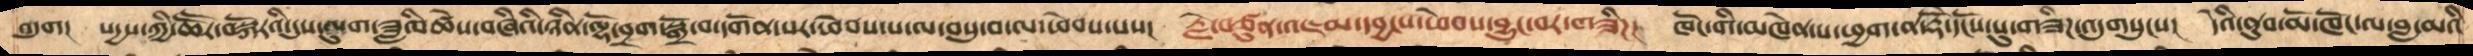འདུག། སདྱས་ཀྱི་ཆཽར་བསྐོརའི་དུས་ལུག་ཟླའི་ཚེས་བཞིའི་ཉིན་ལྷོ་བྲག་སྒྲོ་བ་དགོན་པར་ཕེབས་པ་ལ་བསུ་བ་ལ་ཕེབས་པས།  རྗེ་བཙུན་འཇམ་དབྱངས་ཕེབས་བྱུང་བར་གཟིཌ།  ཁོང་གི་མཁེན་པ་ཕྱག་ན་རྡོ་ེདངོས་སུ་གཟིཌ་འདུག་གསུངས།   དེའི་ནུབ་མོ་ཁོང་ལ་བླ་མའི་
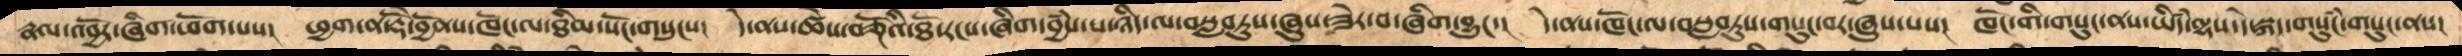རྣལ་འབྱོར་ཞིག་ཕོག་པས།  ཕྱག་ན་རྡོ་ེབྱོནས་ཁོང་ལ་ཐིམ་སོང་གསུངས།  དེ་ནས་ཚེས་བཅྔོའི་ཐོ་རངས་ཞིག་བྱཾས་པ་ཉིད་ལ་བསླབཏུས་ཞུས་ཟེར་བ་ཞིག་བྱུང་།  དེ་ནས་ཁོང་ལ་བསླབཏུས་གསུང་བར་ཞུས་པས།  ཁོང་གི་གསུང་ནས་ཡིདཾ་ལྷས་དེ་སྐད་གསུངཾ་གསུང་ནས།
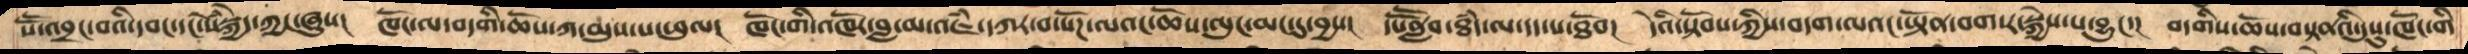སཽ་འབྲང་བའི་དབང་དང་སེཾསྐྱེད་ཀྱང་ཞུས།  ཁོང་ལ་བདགི་ཆོས་ཀ་མུས་པ་ཕུལ།  ཁོང་གི་འཁོར་བླ་མ་འཇཾ་དཀར་བ་སོཌ་ལའང་ཆོས་ལུང་མང་དུ་བྱས།  དཔོནློབ་ཐཾད་ལ་དད་པ་ཐོབ།   དེའི་སྟོབས་ཀྱིས་བདག་ལའང་ཡྟོན་བག་ར་སྐྱེས་པ་བྱུང་།  བདགིས་ཆོས་བསྟནའི་དུསུ་ཁོང་གི
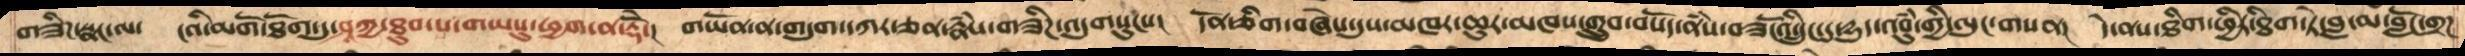གཟིཌ་སྣང་ལ་  ངའི་མགོ་ཐོག་དུ་ཤཱཀྱ་ཐུབ་པ་གཡས་སུ་ཕྱག་ན་རྡོ་ེ།  གཡོན་ན་གདུག་དཀར་ཅན་རྣཾས་གཟིཌ་འདུགསུངས།   དོན་ཅིག་བཞེས་དུས་མཁར་ཆུར་མཁས་གྲུབ་བསོད་ནཾས་བཟངའོསྲུངི་དུ་དྱུད་འབུཾ་གྱི་ལུང་གསན།  དེ་ནས་ཐིག་ཕྱིར་ཐིག་ཏེ་བླ་མ་བློང་གྲཌ
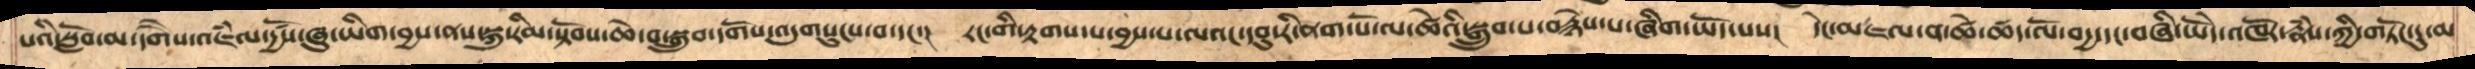པའི་སློབ་མ་དགཻས་་འཇཾལ་དྱཚོས་ཞུ་ཡིག་བྱས་ནས་སྐུ་རིམ་སྟོབས་ཆེ་བ་སྒྲུབ་དགོས་འདུགསུངས་བ་དང་།  རང་གི་ཀྱང་རྟགས་པ་བྱས་པ་ལའང་དབུ་རི་ནག་པོ་ལ་ཚེའི་སྒྲུབ་པ་བརྙེས་པ་ཞིག་ཡོད་པས།  དེང་མཇལ་ན་ཚེ་ཚད་ལོ་བདྱ་དང་བཞི་ཡོདེ་འཁོར་རྣཾས་ཀྱི་གཏོང་དུ་མ
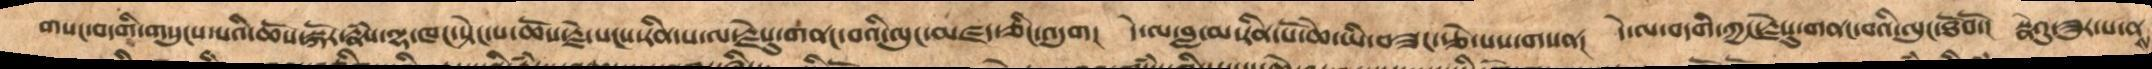གསང་བདགི་གསུངས་པའི་ཆོས་སྐོར་རྣཾས་ལྷ་ཁང་སྟེང་པ་ཆོས་རྗེ་སངས་རིན་པ་ལ་རྗེསུ་གནང་བའི་ལུང་མཛད་ཅིང་འདུག་།   དེ་ལ་བླ་མ་རིན་པོ་ཆེ་ཡི་བཟང་རྩེ་པས་གསན།   དེ་ལ་བདགི་ཀྱང་རྗེསུ་གནང་བའི་ལུང་ཐོབོ།  སྣེའུ་ཟུར་པ་ནས་
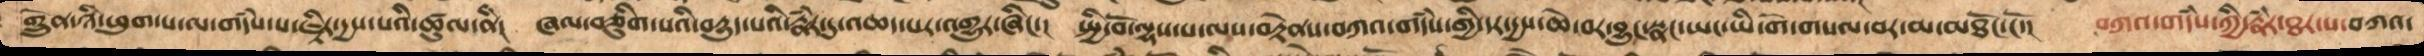གྲེུན་ཉི་ཕུག་པ་ལ་གདཾས་པ་ཇྟིར་དྱས་པའི་ཚུལ་ནི། ཞལ་བཅུགི་པའི་བདྱུད་པའི་རྣཾར་དུ་འཆད་པར་འགྱུར་ཞི་ང   སྤྱི་བོ་ལྷས་པ་ལས་བརྟེནས་བཀའ་གདཾས་གྱི་དར་དྱས་ཆེ་བར་བྱུང་སྣང་ཡང་ཡི་གེ་གསལ་བར་མ་མཐོང་ངོ་།  བཀའ་གདཾས་ཀྱི་རྣཾར་ཐར་པ་བཀའ་
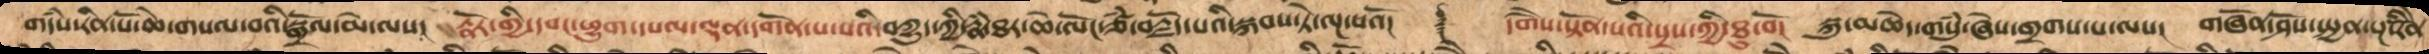གདཾས་རིན་པོ་ཆེ་གསལ་བའི་སྒྲོལ་མེ་ལས།  རྣོར་གྱི་དབང་ཕྱུག་དཔལ་ལྡན་དགོན་པ་པའི་བཀྱུད་ཀྱི་རྣཾ་ཐར་ཆེ་ལོང་ཙཾ་བརྗོད་པའི་སྐབས་ཏེ་ལྔ་པའོ།།  ࿑  དགཻས་སྟོན་པའི་སྲས་ཀྱི་ཐུ་བོ།  སྐུ་མཆེད་གསུཾ་ཞེས་གྲགས་པ་ལས། གཞོན་ཤོས་སྤྱན་སྔ་རིནོ་ེ
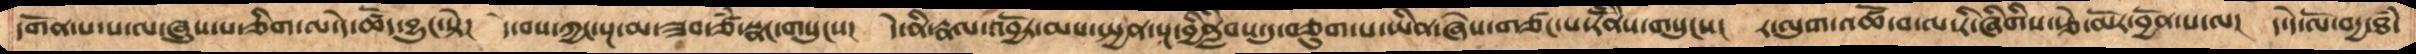དགོན་པ་ས་ལ་ཞུས་པ་ཅིག་ལ་དེ་ཚོད་བྱུང་སྟེ།   དེ་བས་ཀྱང་སྔ་མ་ཟབ་ཙཾ་སྣང་གསུངས།  དེ་ནི་རྣལ་འབྱོར་མས་སྤྱན་སྔ་བྱིནླིབས་ཏུ་བཅུག་པ་ཡིན་ཞེས་གཙང་པ་རིནོེས་གསུངས།   ར་ལུག་འཚོ་བ་ལ་རི་ཞིགིས་རྩེ་མོར་བྱོན་པ་ལ།  ད་དེ་ལོ་བདྱ་ཐཾ་
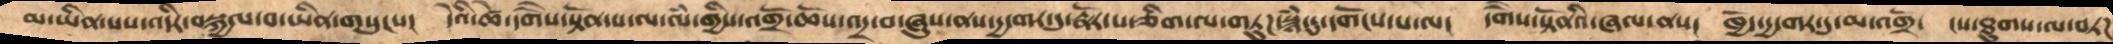མ་ཡིན་པས་འདིར་བསྐྱལ་བ་ཡིན་གསུངས།   དེའི་ཚེ་དགཻས་སྟོན་པ་ལ་ལཾ་གྱིས་འགྲོ་ཆོས་འདྲ་བ་ཞུས་ནས་དྱ་གར་དུ་རྣོར་པ་ཅིག་ལ་གཏུཌ་སྙཾ་དུ་དགོངས་པ་ལ།  དགཻས་སྟོནའི་ཞལ་ནས།  ཁྱོད་དྱ་གར་དུ་མ་འགྲོ་  ངས་ཐུགས་ལ་བཏཌ་
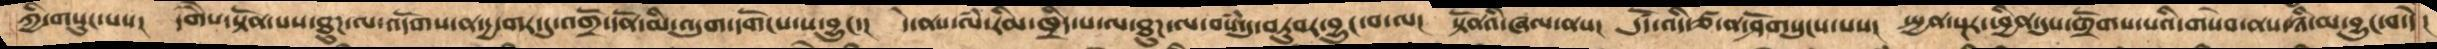ཀྱི་གསུང་པས།  དགཻས་སྟོན་པས་ཐུཌ་ལ་འདོགས་ན་དྱ་གར་དུ་འགྲོ་དོན་མི་འདུག་དགོངས་པ་བྱུང་།   དེ་ནས་ལཾ་རིམ་ཁྲིད་པ་ལ་ཐུཌ་ལ་བསཾ་དུ་བཏུབར་བྱུང་བ་ལ།  སྟོནའི་ཞལ་ནས།  དུསཚོད་འདི་ཙ་ན་ཤོགསུངས་པས།   སྤྱན་སྔར་ཕྱིན་དུས་གྲོགས་པའི་གསེབ་ནས་ཉི་མ་བྱུང་བ་དེ།
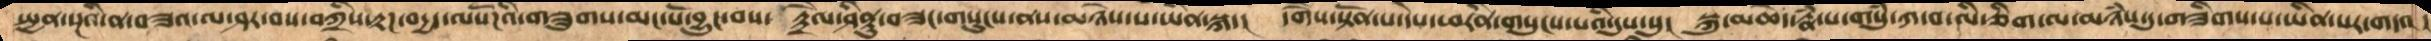སྤྱན་སྔའི་ན་བཟའ་ལ་ཤར་བས་བཀྲིས་རྟཌ་བདྱད་ལསོཌའི་གཟུགས་མང་པོ་བྱུང་བས།  རྟྲཻལ་ཤིནྟུ་བཟང་གསུངས་ནས་མཉེས་པ་ཡིན་སྐད།   དགཻས་སྟོན་པ་དེས་ཕརིན་གསུངས་པའི་དུས་སུ།  སྐུ་མཆེད་རྣཾ་པ་གསུཾ་ཀ་བ་ལི་ཅིག་ལ་མཉཾས་དུ་གཟིགས་པ་ཡིན་པར་གདའ།
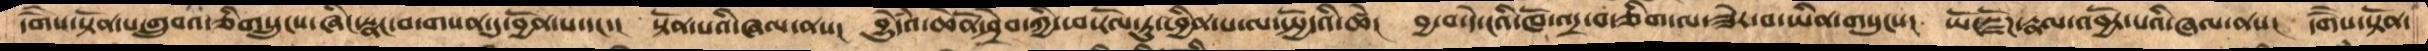དགཻས་སྟོན་པ་གྲུབའི་ཅིགསྲུངས་ཞིང་སྣང་བ་གསན་དུ་བྱོན་པ་དང་། སྟོན་པའི་ཞལ་ནས།  བྱེུདཾའ་ཆེནོ་ཤྲེབ་ཀྱི་ཕ་རོལ་དུ་ཕྱིན་པ་ལ་སྤྱོདའི་ཚེ།   བྱ་བ་དེ་ངའི་ཁོ་འདྲ་བ་ཅིག་ལ་ཟེར་བ་ཡིན་གསུངས།   ཡོངསྫོཌ་རྣལ་འབྱོར་པའི་ཞལ་ནས།  དགཻས་སྟོན་
